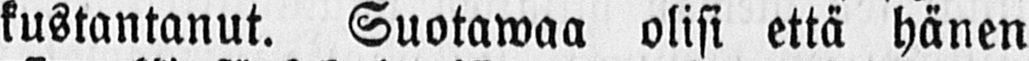kustantanut. Suotawaa olisi että hänen
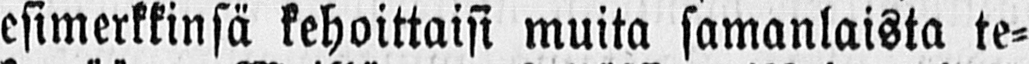esimerkkinsä kehoittaisi muita samanlaista te-
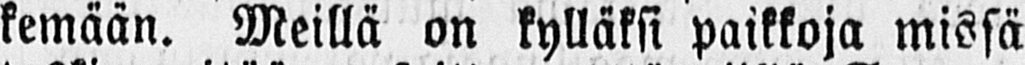kemään. Meillä on kylläksi paikkoja missä
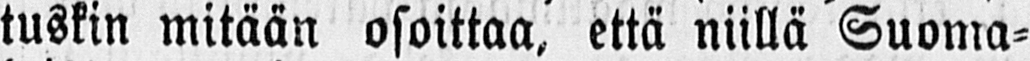tuskin mitään osoittaa, että niillä Suoma-
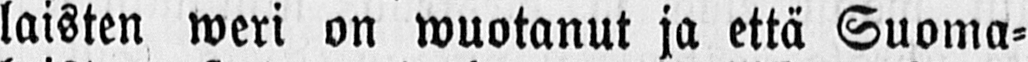laisten weri on wuotanut ja että Suoma-
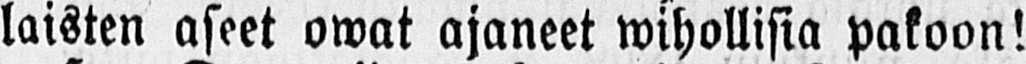laisten aseet owat ajaneet wihollisia pakoon!
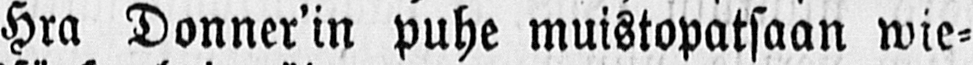Hra Donner'in puhe muistopatsaan wie-
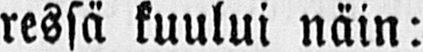ressä kuului näin:
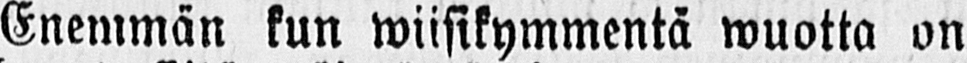Enemmän kun wiisikymmentä wuotta on
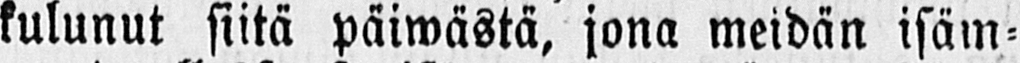kulunut siitä päiwästä, jona meidän isäm-
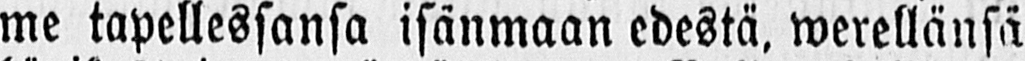me tapellessansa isänmaan edestä, werellänsä
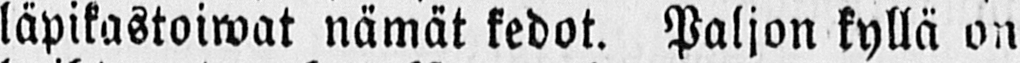läpikastoiwat nämät kedot. Paljon kyllä on
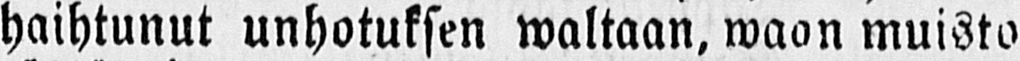haihtunut unhotuksen waltaan, waan muisto
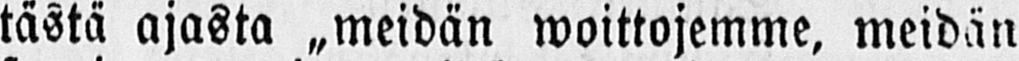tästä ajasta „meidän woittojemme, meidän
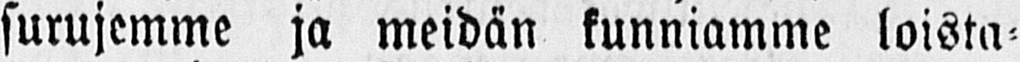surujemme ja meidän kunniamme loista-
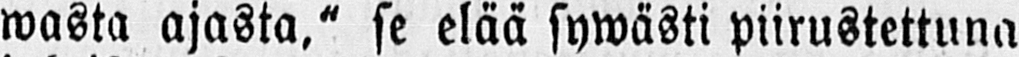wasta ajasta," se elää sywästi piirustettuna
